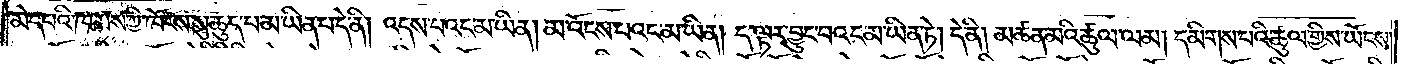མེད་པའི་ཁམས་ཀྱི་ཁོངས་སུ་ཆུད་པ་མ་ཡིན་པ་དེ་ནི། འདས་པའང་མ་ཡིན། མ་འོངས་པའང་མ་ཡིན། ད་ལྟར་བྱུང་བའང་མ་ཡིན་ཏེ། དེ་ནི། མཚན་མའི་ཚུལ་ལམ། དམིགས་པའི་ཚུལ་གྱིས་ཡོངས་
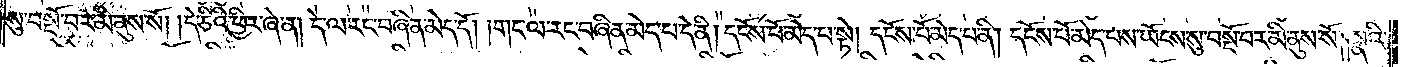སུ་བསྔོ་བར་མི་ནུས་སོ། །དེ་ཅིའི་ཕྱིར་ཞེ་ན། དེ་ལ་རང་བཞིན་མེད་དོ། །གང་ལ་རང་བཞིན་མེད་པ་དེ་ནི། དངོས་པོ་མེད་པ་སྟེ། དངོས་པོ་མེད་པ་ནི། དངོས་པོ་མེད་པས་ཡོངས་སུ་བསྔོ་བར་མི་ནུས་སོ། །སྣའི་
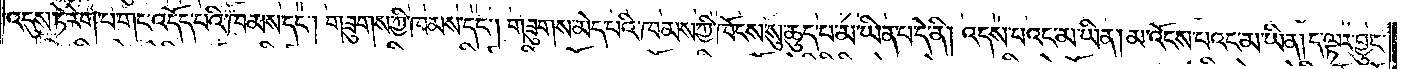འདུས་ཏེ་རེག་པ་གང་འདོད་པའི་ཁམས་དང༌། གཟུགས་ཀྱི་ཁམས་དང༌། གཟུགས་མེད་པའི་ཁམས་ཀྱི་ཁོངས་སུ་ཆུད་པ་མ་ཡིན་པ་དེ་ནི། འདས་པའང་མ་ཡིན། མ་འོངས་པའང་མ་ཡིན། ད་ལྟར་བྱུང་
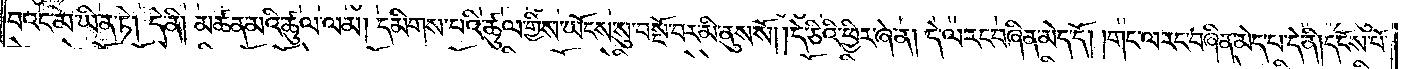བའང་མ་ཡིན་ཏེ། དེ་ནི། མཚན་མའི་ཚུལ་ལམ། དམིགས་པའི་ཚུལ་གྱིས་ཡོངས་སུ་བསྔོ་བར་མི་ནུས་སོ། །དེ་ཅིའི་ཕྱིར་ཞེ་ན། དེ་ལ་རང་བཞིན་མེད་དོ། །གང་ལ་རང་བཞིན་མེད་པ་དེ་ནི། དངོས་པོ་
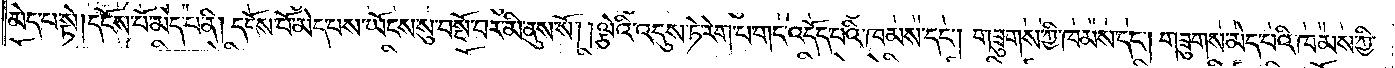མེད་པ་སྟེ། དངོས་པོ་མེད་པ་ནི། དངོས་པོ་མེད་པས་ཡོངས་སུ་བསྔོ་བར་མི་ནུས་སོ། །ལྕེའི་འདུས་ཏེ་རེག་པ་གང་འདོད་པའི་ཁམས་དང༌། གཟུགས་ཀྱི་ཁམས་དང༌། གཟུགས་མེད་པའི་ཁམས་ཀྱི་
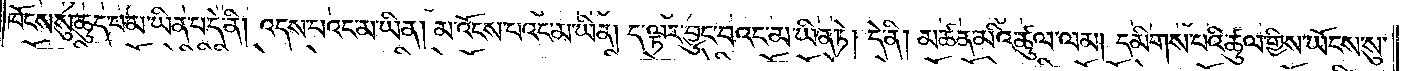ཁོངས་སུ་ཆུད་པ་མ་ཡིན་པ་དེ་ནི། འདས་པའང་མ་ཡིན། མ་འོངས་པའང་མ་ཡིན། ད་ལྟར་བྱུང་བའང་མ་ཡིན་ཏེ། དེ་ནི། མཚན་མའི་ཚུལ་ལམ། དམིགས་པའི་ཚུལ་གྱིས་ཡོངས་སུ་
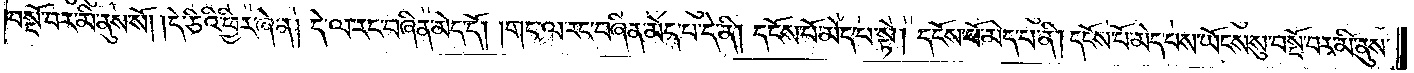བསྔོ་བར་མི་ནུས་སོ། །དེ་ཅིའི་ཕྱིར་ཞེ་ན། དེ་ལ་རང་བཞིན་མེད་དོ། །གང་ལ་རང་བཞིན་མེད་པ་དེ་ནི། དངོས་པོ་མེད་པ་སྟེ། དངོས་པོ་མེད་པ་ནི། དངོས་པོ་མེད་པས་ཡོངས་སུ་བསྔོ་བར་མི་ནུས་
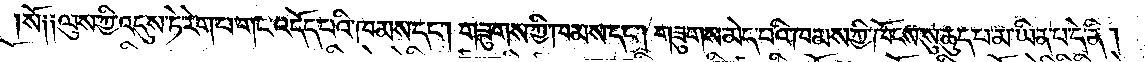སོ༑ ༑ལུས་ཀྱི་འདུས་ཏེ་རེག་པ་གང་འདོད་པའི་ཁམས་དང༌། གཟུགས་ཀྱི་ཁམས་དང༌། གཟུགས་མེད་པའི་ཁམས་ཀྱི་ཁོངས་སུ་ཆུད་པ་མ་ཡིན་པ་དེ་ནི།
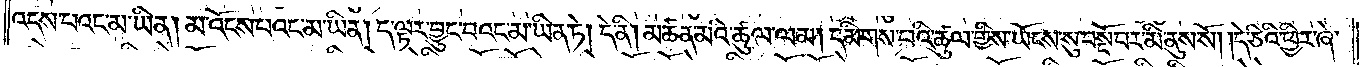འདས་པའང་མ་ཡིན། མ་འོངས་པའང་མ་ཡིན། ད་ལྟར་བྱུང་བའང་མ་ཡིན་ཏེ། དེ་ནི། མཚན་མའི་ཚུལ་ལམ། དམིགས་པའི་ཚུལ་གྱིས་ཡོངས་སུ་བསྔོ་བར་མི་ནུས་སོ། །དེ་ཅིའི་ཕྱིར་ཞེ་
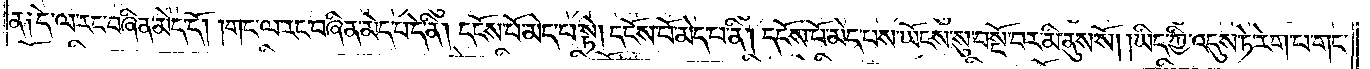ན༑ དེ་ལ་རང་བཞིན་མེད་དོ། །གང་ལ་རང་བཞིན་མེད་པ་དེ་ནི། དངོས་པོ་མེད་པ་སྟེ། དངོས་པོ་མེད་པ་ནི། དངོས་པོ་མེད་པས་ཡོངས་སུ་བསྔོ་བར་མི་ནུས་སོ། །ཡིད་ཀྱི་འདུས་ཏེ་རེག་པ་གང་
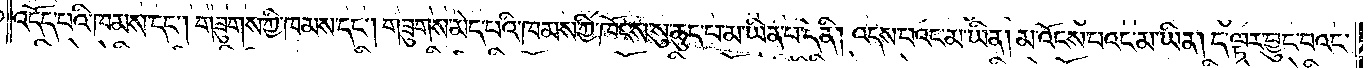འདོད་པའི་ཁམས་དང༌། གཟུགས་ཀྱི་ཁམས་དང༌། གཟུགས་མེད་པའི་ཁམས་ཀྱི་ཁོངས་སུ་ཆུད་པ་མ་ཡིན་པ་དེ་ནི། འདས་པའང་མ་ཡིན། མ་འོངས་པའང་མ་ཡིན། ད་ལྟར་བྱུང་བའང་
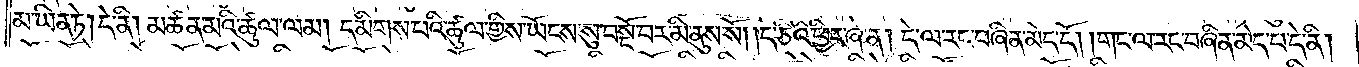མ་ཡིན་ཏེ། དེ་ནི། མཚན་མའི་ཚུལ་ལམ། དམིགས་པའི་ཚུལ་གྱིས་ཡོངས་སུ་བསྔོ་བར་མི་ནུས་སོ། །དེ་ཅིའི་ཕྱིར་ཞེ་ན། དེ་ལ་རང་བཞིན་མེད་དོ། །གང་ལ་རང་བཞིན་མེད་པ་དེ་ནི།
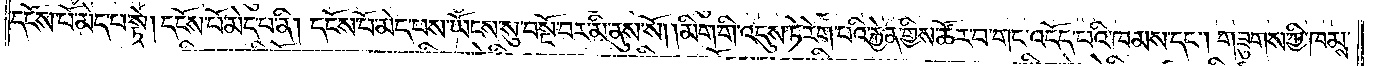དངོས་པོ་མེད་པ་སྟེ། དངོས་པོ་མེད་པ་ནི། དངོས་པོ་མེད་པས་ཡོངས་སུ་བསྔོ་བར་མི་ནུས་སོ། །མིག་གི་འདུས་ཏེ་རེག་པའི་རྐྱེན་གྱིས་ཚོར་བ་གང་འདོད་པའི་ཁམས་དང༌། གཟུགས་ཀྱི་ཁམས་
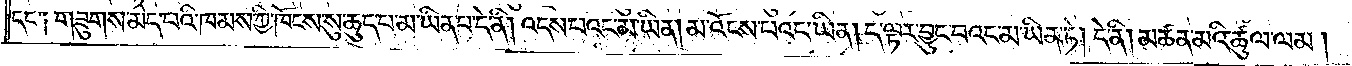དང་༑ གཟུགས་མེད་པའི་ཁམས་ཀྱི་ཁོངས་སུ་ཆུད་པ་མ་ཡིན་པ་དེ་ནི། འདས་པའང་མ་ཡིན། མ་འོངས་པའང་མ་ཡིན། ད་ལྟར་བྱུང་བའང་མ་ཡིན་ཏེ། དེ་ནི། མཚན་མའི་ཚུལ་ལམ།
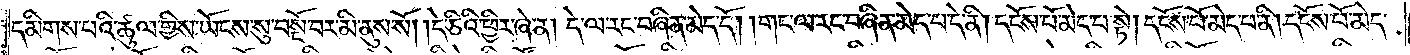དམིགས་པའི་ཚུལ་གྱིས་ཡོངས་སུ་བསྔོ་བར་མི་ནུས་སོ། །དེ་ཅིའི་ཕྱིར་ཞེ་ན། དེ་ལ་རང་བཞིན་མེད་དོ། །གང་ལ་རང་བཞིན་མེད་པ་དེ་ནི། དངོས་པོ་མེད་པ་སྟེ། དངོས་པོ་མེད་པ་ནི། དངོས་པོ་མེད་
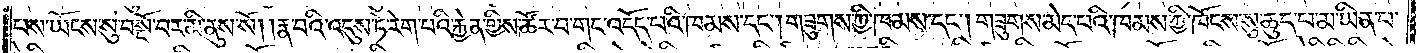པས་ཡོངས་སུ་བསྔོ་བར་མི་ནུས་སོ། །རྣ་བའི་འདུས་ཏེ་རེག་པའི་རྐྱེན་གྱིས་ཚོར་བ་གང་འདོད་པའི་ཁམས་དང༌། གཟུགས་ཀྱི་ཁམས་དང༌། གཟུགས་མེད་པའི་ཁམས་ཀྱི་ཁོངས་སུ་ཆུད་པ་མ་ཡིན་པ་
